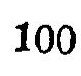100
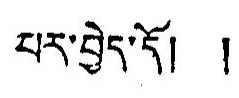པར་བྱེད་དོ། །
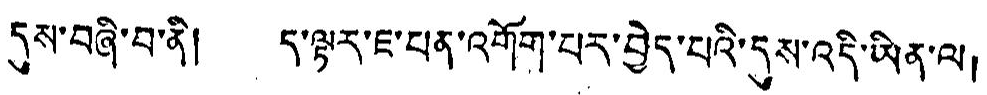དུས་བཞི་བ་ནི། ད་ལྟར་ཇ་པན་འགོག་པར་བྱེད་པའི་དུས་འདི་ཡིན་ལ།
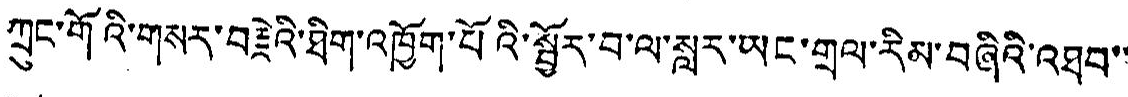ཀྲུང་གོའི་གསར་བརྗེའི་ཐིག་འཁྱོག་པོའི་སྦྱོར་བ་ལ་སླར་ཡང་གྲལ་རིམ་བཞིའི་འཐབ་་
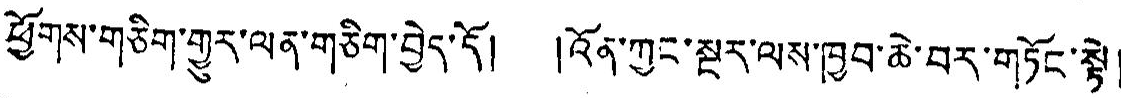ཕྱོགས་གཅིག་གྱུར་ལན་གཅིག་བྱེད་དོ། །འོན་ཀྱང་སྔར་ལས་ཁྱབ་ཆེ་བར་གཏོང་སྟེ།
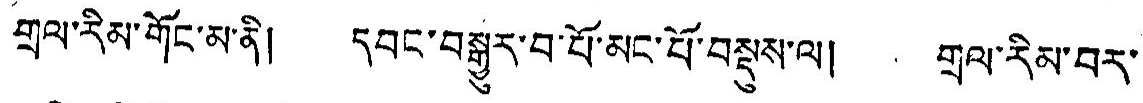གྲལ་རིམ་གོང་མ་ནི། དབང་བསྒྱུར་བ་པོ་མང་པོ་བསྡུས་ལ། གྲལ་རིམ་བར་
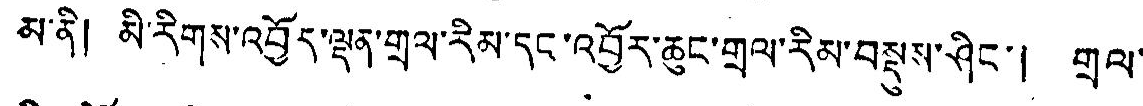མ་ནི། མི་རིགས་འབྱོར་ལྡན་གྲལ་རིམ་དང་འབྱོར་ཆུང་གྲལ་རིམ་བསྡུས་ཤིང་། གྲལ་
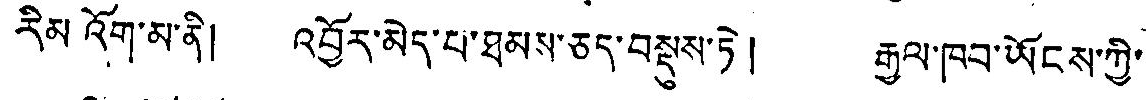རིམ འོག་མ་ནི། འབྱོར་མེད་པ་ཐམས་ཅད་བསྡུས་ཏེ། རྒྱལ་ཁབ་ཡོངས་ཀྱི་
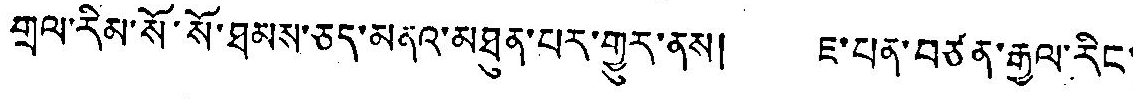གྲལ་རིམ་སོ་སོ་ཐམས་ཅད་མནའ་མཐུན་པར་གྱུར་ནས། ཇ་པན་བཙན་རྒྱལ་རིང་
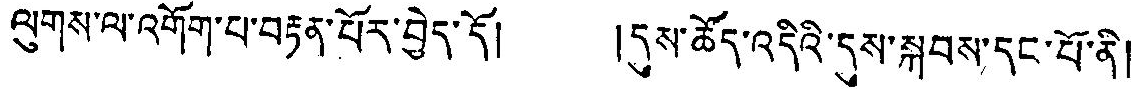ལུགས་ལ་འགོག་པ་བརྟན་པོར་བྱེད་དོ། །དུས་ཚོད་འདིའི་དུས་སྐབས་དང་པོ་ནི།
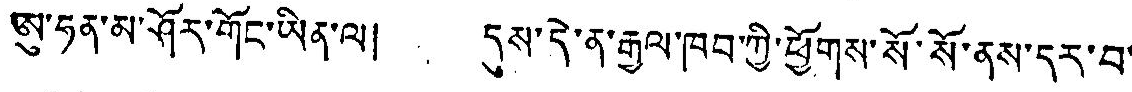ཨུ་ཧན་མ་ཤོར་གོང་ཡིན་ལ། དུས་དེ་ན་རྒྱལ་ཁབ་ཀྱི་ཕྱོགས་སོ་སོ་ནས་དར་བ་
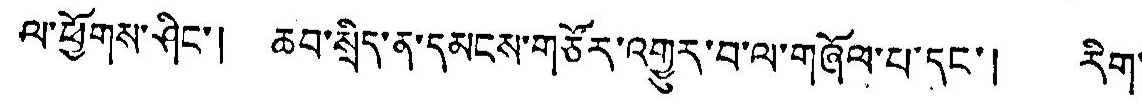ལ་ཕྱོགས་ཤིང་། ཆབ་སྲིད་ན་དམངས་གཙོར་འགྱུར་བ་ལ་གཞོལ་པ་དང་། རིག་
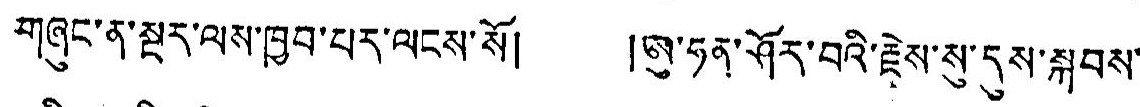གཞུང་ན་སྔར་ལས་ཁྱབ་པར་ལངས་སོ། །ཨུ་ཧན་ཤོར་བའི་རྗེས་སུ་དུས་སྐབས་
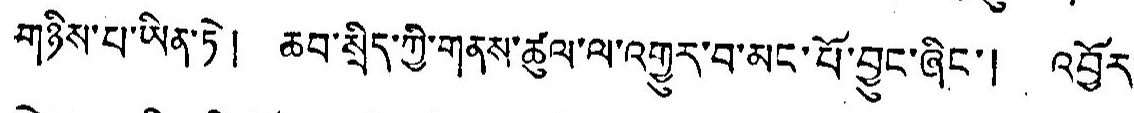གཉིས་པ་ཡིན་ཏེ། ཆབ་སྲིད་ཀྱི་གནས་ཚུལ་ལ་འགྱུར་བ་མང་པོ་བྱུང་ཞིང་། འབྱོར་
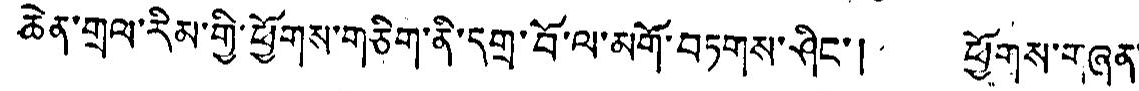ཆེན་གྲལ་རིམ་གྱི་ཕྱོགས་གཅིག་ནི་དགྲ་བོ་ལ་མགོ་བཏགས་ཤིང་། ཕྱོགས་གཞན་
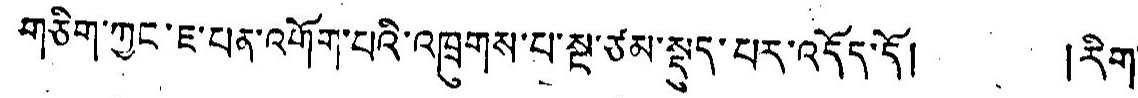གཅིག་ཀྱང་ཇ་པན་འགོག་པའི་འཁྲུགས་པ་སྔ་ཙམ་སྡད་པར་འདོད་དོ། །རིག་
